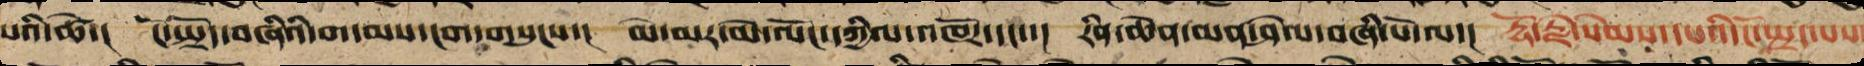པའི་ཚེ་།  ངོ་སྤྲོད་བཞིའིགདམས་ངག་གསུངས་།  མེ་མར་མེ་ལོང་དཀྱིལ་འཁོར་དང་་།  རིན་ཆེན་མན་ཤེལ་བཞི་པོ་ལ་།  རྡོ་རྗེ་སེམས་དཔར་ངོ་སྤྲད་པས
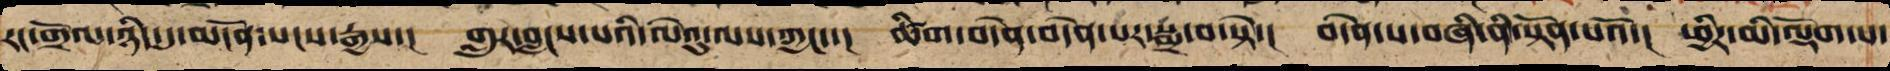རང་གྲོལ་ཉིད་དུ་མངོན་སངས་རྒྱས་། གླུར་བླངས་པའི་ལེའུ་ལས་ཀྱང་་། ཚིག་བདེན་བདེན་པར་སྨྲ་བ་སྟེ་། བདེན་པ་བཞི་ནི་སྟོན་པའོ་། ཕྱིར་མི་ལྡོག་པ་
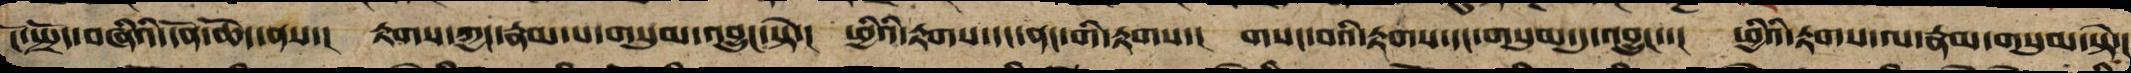ངོ་སྤྲོད་བཞིའི་དོན་ཆོད་ནས་། རྟགས་ཀྱང་རྣམ་པ་གསུམ་འབྱུང་སྟེ་། ཕྱི་ཡི་རྟགས་དང་ནང་གི་རྟགས་། གསང་བའི་རྟགས་དང་གསུམ་དུ་འབྱུང་་། ཕྱིའི་རྟགས་ལ་རྣམ་གསུམ་སྟེ་།
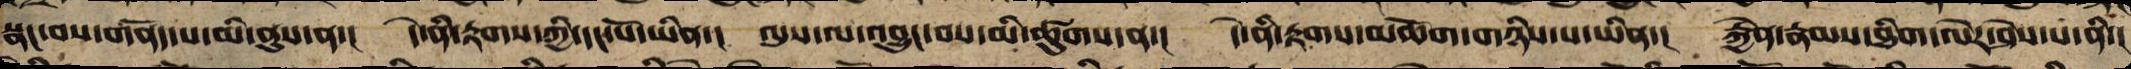སྣང་བས་གནོད་པར་མི་ནུས་ན་། དེ་ནི་རྟགས་ཀྱི་དང་པོ་ཡིན་། ལུས་ལ་འབྱུང་བས་མི་ཚུགས་ན་། དེ་ནི་རྟགས་མཆོག་གཉིས་པ་ཡིན་། རྐྱེན་རྣམས་ཐིག་ལེར་ཤེས་པ་ནི་།
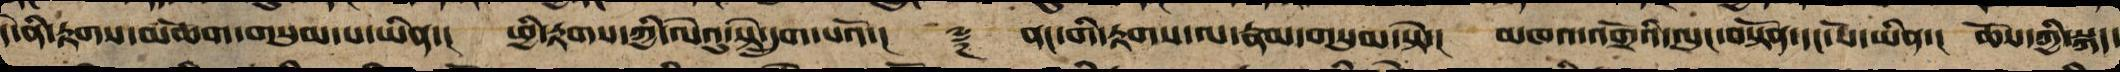དེ་ནི་རྟགས་མཆོག་གསུམ་པ་ཡིན་། ཕྱི་རྟགས་ཀྱི་ལེའུ་སྟེ་དྲུག་པའོ་།། ༈ ་།ནང་གི་རྟགས་ལ་རྣམ་གསུམ་སྟེ་། མཁའ་འགྲོའི་ལུང་སྟོན་དང་པོ་ཡིན་། ཆོས་ཀྱི་སྐད་
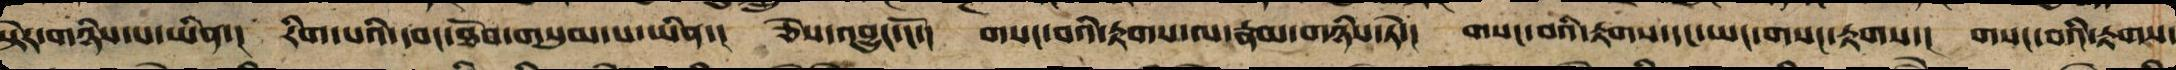སྟེར་གཉིས་པ་ཡིན་། རིག་པའི་དབང་ཐོབ་གསུམ་པ་ཡིན་། ཞེས་འབྱུང་ངོ་། གསང་བའི་རྟགས་ལ་རྣམ་གཉིས་ཏེ་། གསང་བའི་རྟགས་དང་ཡང་གསང་རྟགས་། གསང་བའི་རྟགས་
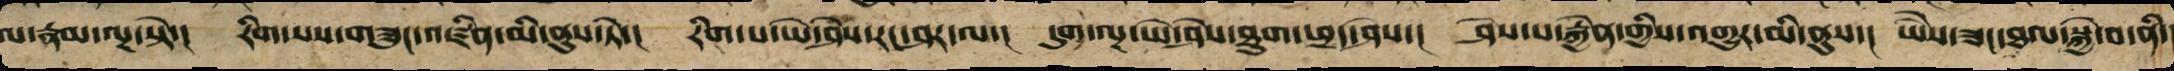ལ་རྣམ་ལྔ་སྟེ་། རིག་པས་གཟུང་འཛིན་མི་ནུས་ཏེ་། རིག་པ་ཡེ་ཤེས་རང་ཤར་ལ་། དུག་ལྔ་ཡེ་ཤེས་ཐུག་ཕྲད་ཤེས་། ཤེས་པ་རྐྱེན་གྱིས་འགྱུར་མི་ནུས་། ཡཻས་ཟང་ཐལ་སྐྱེ་བ་ནི་།
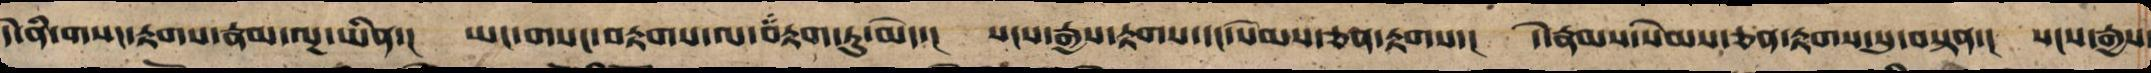དེ་ནི་གསང་རྟགས་རྣམ་ལྔ་ཡིན་། ཡང་གསང་རྟགས་ལ་བརྟག་ཏུ་མེད་། སངས་རྒྱས་རྟགས་དང་སེམས་ཅན་རྟགས་། དེ་རྣམས་སེམས་ཅན་རྟགས་སུ་བསྟན་། སངས་རྒྱས་
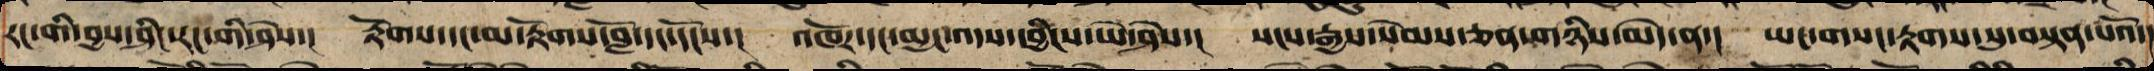རང་གིས་བྱས་ཤིང་རང་གིས་ཤེས་། རྟོགས་དང་མ་རྟོགས་བློ་དང་དངོས་། འཁོར་དང་མྱང་འདས་དབྱིངས་ཡེ་ཤེས་། སངས་རྒྱས་སེམས་ཅན་གཉིས་མེད་ན་། ཡང་གསང་རྟགས་སུ་བསྟན་པའོ་།
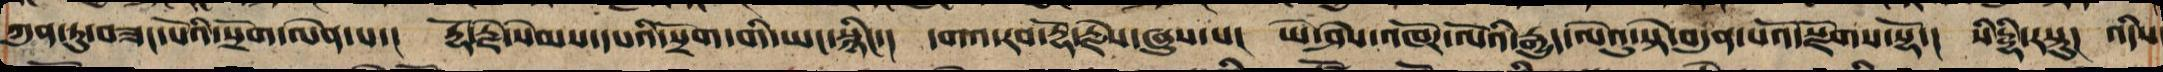ཀུན་ཏུ་བཟང་པོའི་སྲོག་ལེན་པ་། རྡོ་རྗེ་སེམས་དཔའི་སྲོག་གི་ཡང་སྙིང་། དགའ་རབ་རྡོ་རྗེས་ཞུས་པ་། ཡེ་ཤེས་འཁོར་ལོའི་རྒྱུད་ལེའུ་སྟེ་བདུན་པ་སྫོགས་སོ་།།  སིདྡྷི་རསྟུ། འདིས་
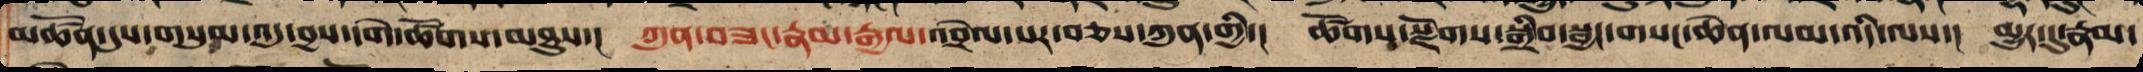མཚོན་དུས་གསུམ་འདུ་བྱས་དགེ་ཚོགས་མཐུས་། ཀུན་བཟང་རྣམ་རྒྱལ་འབྲེལ་པར་བཅས་ཀུན་གྱི་། ཚོགས་སྫོགས་སྒྲིབ་སྦྱང་གསང་ཆེན་ལམ་འདི་ལས་། མྱུར་དུ་རྣམ་
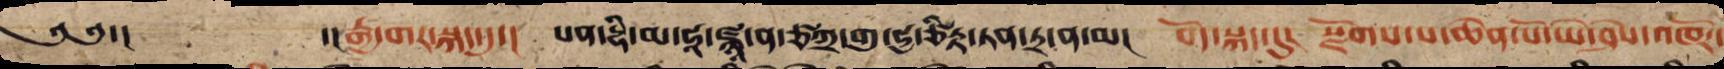༄༅་། ་།རྒྱ་གར་སྐད་དུ། མ་ཧཱ་སན་དྷི་ཛྙཱ་ན་ཙཀྲ་གུ་ཧྱ་ཙིཏྟ་ཏནྟྲ་ནཱ་མ། བོད་སྐད་དུ། སྫོགས་པ་ཆེན་པོ་ཡེ་ཤེས་འཁོར་
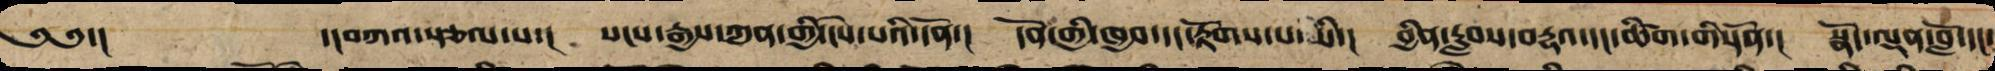༄༅་། ་།བཀའ་སྩལ་པ་། སངས་རྒྱས་ཀུན་གྱི་ངེས་པའི་དོན་། དོན་གྱི་ཁྱབ་དང་རྟོགས་པ་ཡི་། བྱིན་རླབས་བརྡའ་དང་ཚིག་གི་དོན་། སྣོད་ལྡན་བློ་དང་
